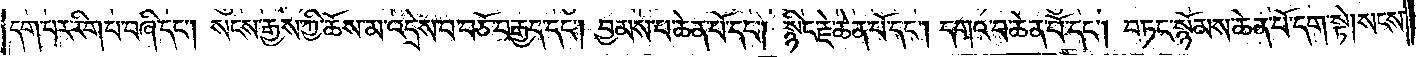དག་པར་རིག་པ་བཞི་དང༌། སངས་རྒྱས་ཀྱི་ཆོས་མ་འདྲེས་པ་བཅོ་བརྒྱད་དང༌། བྱམས་པ་ཆེན་པོ་དང༌། སྙིང་རྗེ་ཆེན་པོ་དང༌། དགའ་བ་ཆེན་པོ་དང༌། བཏང་སྙོམས་ཆེན་པོ་དག་སྟེ། སངས་
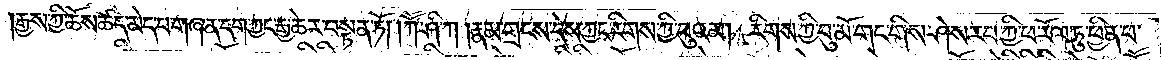རྒྱས་ཀྱི་ཆོས་ཚད་མེད་པ་གཞན་དག་ཀྱང་རྒྱ་ཆེར་བསྟན་ཏོ། །ཀཽ་ཤི་ཀ །རྣམ་གྲངས་དེས་ཀྱང་རིགས་ཀྱི་བུའམ། རིགས་ཀྱི་བུ་མོ་གང་གིས་ཤེས་རབ་ཀྱི་ཕ་རོལ་ཏུ་ཕྱིན་པ་
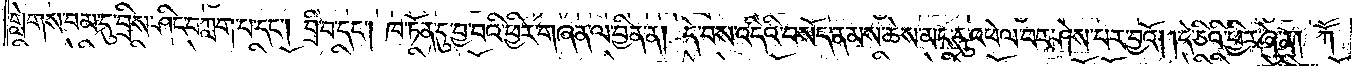གླེགས་བམ་དུ་བྲིས་ཤིང་བཀླག་པ་དང༌། བྲི་བ་དང༌། ཁ་ཏོན་དུ་བྱ་བའི་ཕྱིར་གཞན་ལ་བྱིན་ན། དེ་བས་འདིའི་བསོད་ནམས་ཆེས་མང་དུ་འཕེལ་བར་ཤེས་པར་བྱའོ། །དེ་ཅིའི་ཕྱིར་ཞེ་ན། ཀཽ་
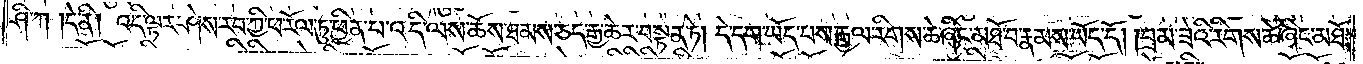ཤི་ཀ །དེ་ནི། འདི་ལྟར་ཤེས་རབ་ཀྱི་ཕ་རོལ་ཏུ་ཕྱིན་པ་འདི་ལས་ཆོས་ཐམས་ཅད་རྒྱ་ཆེར་བསྟན་ཏེ། དེ་དག་ཡོད་པས་རྒྱལ་རིགས་ཆེ་ཞིང་མཐོ་བ་རྣམས་ཡོད་དོ། །བྲམ་ཟེའི་རིགས་ཆེ་ཞིང་མཐོ་
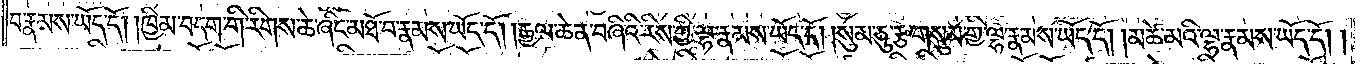བ་རྣམས་ཡོད་དོ། །ཁྱིམ་བདག་གི་རིགས་ཆེ་ཞིང་མཐོ་བ་རྣམས་ཡོད་དོ། །རྒྱལ་ཆེན་བཞིའི་རིས་ཀྱི་ལྷ་རྣམས་ཡོད་དོ། །སུམ་ཅུ་རྩ་གསུམ་གྱི་ལྷ་རྣམས་ཡོད་དོ། །མཚེ་མའི་ལྷ་རྣམས་ཡོད་དོ། །
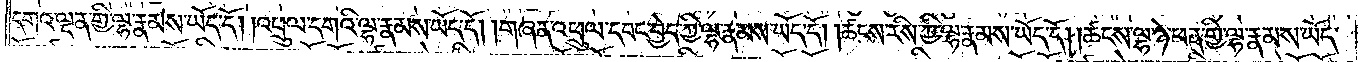དགའ་ལྡན་གྱི་ལྷ་རྣམས་ཡོད་དོ། །འཕྲུལ་དགའི་ལྷ་རྣམས་ཡོད་དོ། །གཞན་འཕྲུལ་དབང་བྱེད་ཀྱི་ལྷ་རྣམས་ཡོད་དོ། །ཚངས་རིས་ཀྱི་ལྷ་རྣམས་ཡོད་དོ། །ཚངས་ལྷ་ཉེ་ཕན་གྱི་ལྷ་རྣམས་ཡོད་
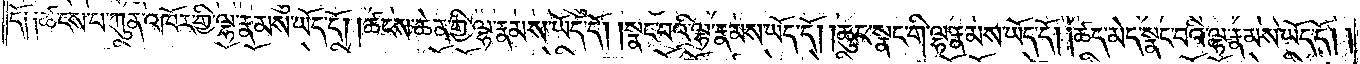དོ། །ཚངས་པ་ཀུན་འཁོར་གྱི་ལྷ་རྣམས་ཡོད་དོ། །ཚངས་ཆེན་གྱི་ལྷ་རྣམས་ཡོད་དོ། །སྣང་པའི་ལྷ་རྣམས་ཡོད་དོ། །ཆུང་སྣང་གི་ལྷ་རྣམས་ཡོད་དོ། །ཚད་མེད་སྣང་བའི་ལྷ་རྣམས་ཡོད་དོ། །
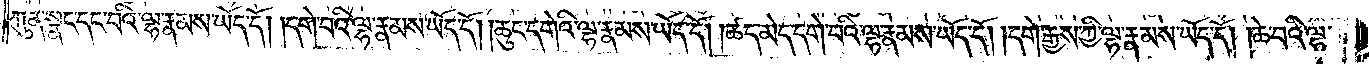ཀུན་སྣང་དང་བའི་ལྷ་རྣམས་ཡོད་དོ། །དགེ་བའི་ལྷ་རྣམས་ཡོད་དོ། །ཆུང་དགེའི་ལྷ་རྣམས་ཡོད་དོ། །ཚད་མེད་དག་བའི་ལྷ་རྣམས་ཡོད་དོ། །དགེ་རྒྱས་ཀྱི་ལྷ་རྣམས་ཡོད་དོ། །ཆེ་བའི་ལྷ་
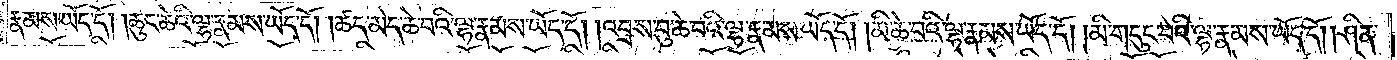རྣམས་ཡོད་དོ། །ཆུང་ཆེའི་ལྷ་རྣམས་ཡོད་དོ། །ཚད་མེད་ཆེ་བའི་ལྷ་རྣམས་ཡོད་དོ། །འབྲས་བུ་ཆེ་བའི་ལྷ་རྣམས་ཡོད་དོ། །མི་ཆེ་བའི་ལྷ་རྣམས་ཡོད་དོ། །མི་གདུང་བའི་ལྷ་རྣམས་ཡོད་དོ། །ཤིན་
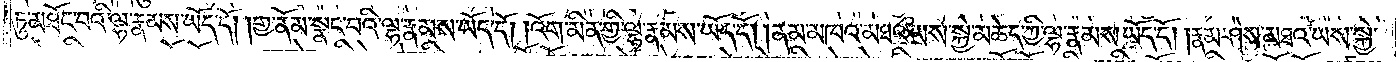ཏུ་མཐོང་བའི་ལྷ་རྣམས་ཡོད་དོ། །གྱ་ནོམ་སྣང་བའི་ལྷ་རྣམས་ཡོད་དོ། །འོག་མིན་གྱི་ལྷ་རྣམས་ཡོད་དོ། །ནམ་མཁའ་མཐའ་ཡས་སྐྱེ་མཆེད་ཀྱི་ལྷ་རྣམས་ཡོད་དོ། །རྣམ་ཤེས་མཐའ་ཡས་སྐྱེ་
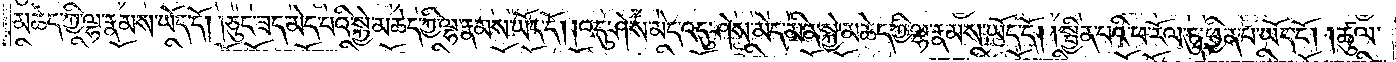མཆེད་ཀྱི་ལྷ་རྣམས་ཡོད་དོ། །ཅུང་ཟད་མེད་པའི་སྐྱེ་མཆེད་ཀྱི་ལྷ་རྣམས་ཡོད་དོ། །འདུ་ཤེས་མེད་འདུ་ཤེས་མེད་མིན་སྐྱེ་མཆེད་ཀྱི་ལྷ་རྣམས་ཡོད་དོ། །སྦྱིན་པའི་ཕ་རོལ་ཏུ་ཕྱིན་པ་ཡོད་དོ། །ཚུལ་
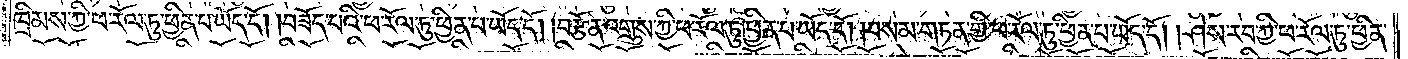ཁྲིམས་ཀྱི་ཕ་རོལ་ཏུ་ཕྱིན་པ་ཡོད་དོ། །བཟོད་པའི་ཕ་རོལ་ཏུ་ཕྱིན་པ་ཡོད་དོ། །བརྩོན་འགྲུས་ཀྱི་ཕ་རོལ་ཏུ་ཕྱིན་པ་ཡོད་དོ། །བསམ་གཏན་གྱི་ཕ་རོལ་ཏུ་ཕྱིན་པ་ཡོད་དོ། །ཤེས་རབ་ཀྱི་ཕ་རོལ་ཏུ་ཕྱིན་
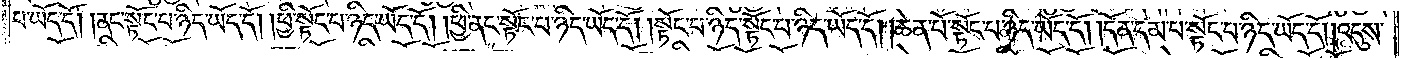པ་ཡོད་དོ། །ནང་སྟོང་པ་ཉིད་ཡོད་དོ། །ཕྱི་སྟོང་པ་ཉིད་ཡོད་དོ། །ཕྱི་ནང་སྟོང་པ་ཉིད་ཡོད་དོ། །སྟོང་པ་ཉིད་སྟོང་པ་ཉིད་ཡོད་དོ། །ཆེན་པོ་སྟོང་པ་ཉིད་ཡོད་དོ། །དོན་དམ་པ་སྟོང་པ་ཉིད་ཡོད་དོ། །འདུས་
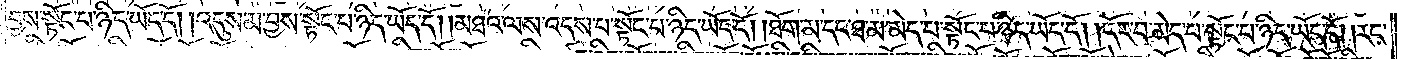བྱས་སྟོང་པ་ཉིད་ཡོད་དོ། །འདུས་མ་བྱས་སྟོང་པ་ཉིད་ཡོད་དོ། །མཐའ་ལས་འདས་པ་སྟོང་པ་ཉིད་ཡོད་དོ། །ཐོག་མ་དང་ཐ་མ་མེད་པ་སྟོང་པ་ཉིད་ཡོད་དོ། །དོར་བ་མེད་པ་སྟོང་པ་ཉིད་ཡོད་དོ། །རང་
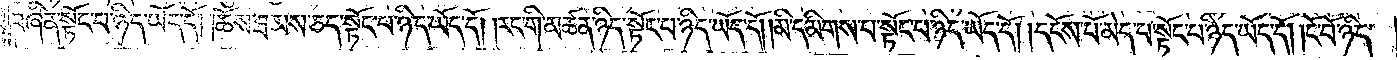བཞིན་སྟོང་པ་ཉིད་ཡོད་དོ། །ཆོས་ཐམས་ཅད་སྟོང་པ་ཉིད་ཡོད་དོ། །རང་གི་མཚན་ཉིད་སྟོང་པ་ཉིད་ཡོད་དོ། །མི་དམིགས་པ་སྟོང་པ་ཉིད་ཡོད་དོ། །དངོས་པོ་མེད་པ་སྟོང་པ་ཉིད་ཡོད་དོ། །ངོ་བོ་ཉིད་
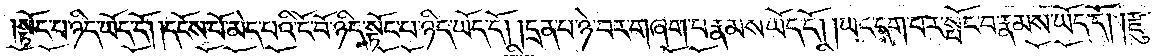སྟོང་པ་ཉིད་ཡོད་དོ། །དངོས་པོ་མེད་པའི་ངོ་བོ་ཉིད་སྟོང་པ་ཉིད་ཡོད་དོ། །དྲན་པ་ཉེ་བར་གཞག་པ་རྣམས་ཡོད་དོ། །ཡང་དག་པར་སྤོང་བ་རྣམས་ཡོད་དོ། །རྫུ་
